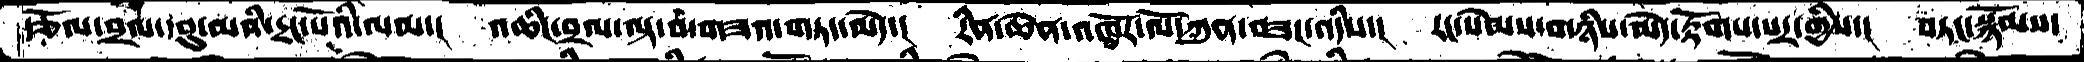རྩོལ་བྲལ་དབུ་མའི་དྲང་པོའི་ལམ་།  འཆིང་བྲལ་ལྟ་བ་གཟའ་གཏད་མེད་།  རིནཆེན་འཁོར་ལོ་ཀུན་བཟང་འདིས་།  རང་སེམས་གཉིས་མེད་རྟོགས་པར་གྱིས་།  བཏང་སྙོམས་
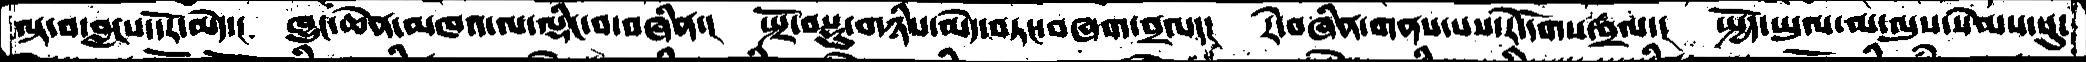ལྟ་བ་བླངས་དོར་མེད་།  ཁྱུང་ཆེན་མཁའ་ལ་ལྡིང་བ་བཞིན་།  སྤྲོ་བསྡུ་གཉིས་མེད་བཏང་བཞག་བྲལ་།  རེ་བཞིན་གནས་པས་རེ་དོགས་བྲལ་།  སྤྱོད་ཡུལ་མ་ལུས་སེམས་སུ་
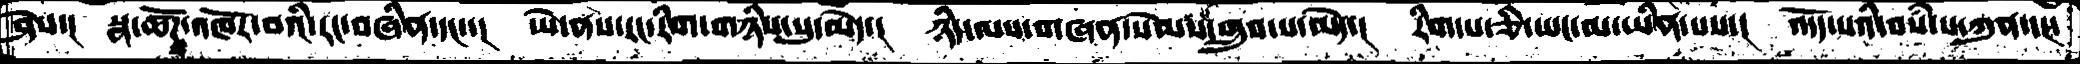ཤེས་།  སྣ་ཚོཌའཁོར་བའི་རང་བཞིན་དང་།   ཡེ་ནས་རང་རིག་གཉིས་སུ་མེད་།  ཉིད་ལས་གཞན་སེམས་གྲུབ་པ་མེད་།  རིག་པ་ཅི་ཡང་མ་ཡིན་པས་།  འདོད་པའི་བསཾ་པ་ཀུན་དང་
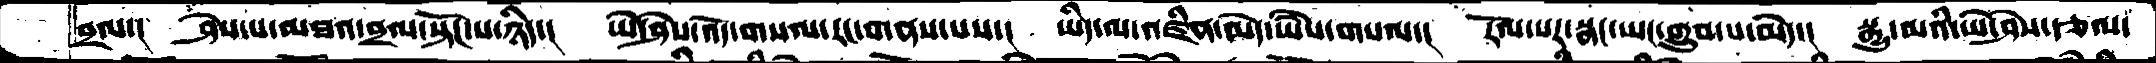བྲལ་།  ཤེས་པ་མཐའ་བྲལ་སྟོང་པ་ཉིད་།  ཡེ་ཤེས་འོད་གསལ་རང་གནས་པས་།  ཡིད་ལ་འཛིན་མེད་ཡཻས་གསལ་།  རོལ་པར་སྣང་ཡང་གྲུབ་པ་མེད་།  སྒྱུ་མའི་ཡེ་ཤེས་རྩལ་
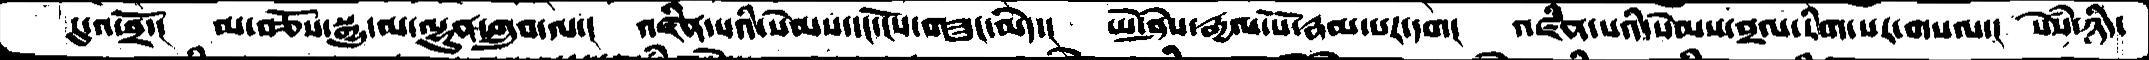དུ་འཕྲོ་།   མ་བཅོས་སྒྱུ་མ་ལྷུན་གྲུབ་ལ་།  འཛིན་པའི་སེམས་དང་ངོས་བཟུང་མེད་།  ཡེ་ཤེས་རྒྱལ་པོ་རྣམ་པར་དག།  འཛིན་པའི་སེམས་བྲལ་རིག་པར་གསལ་།  སེཾས་ཉིད་
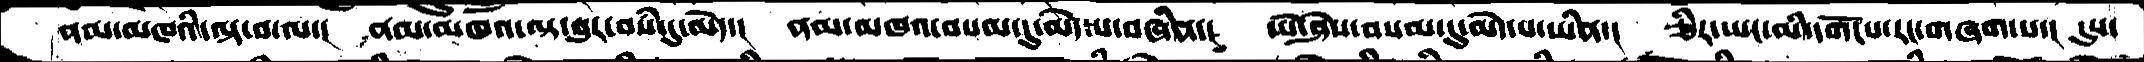ནམ་མཁའི་ལྟ་བ་ལ་།   ནམ་མཁའ་ལྟ་བུར་བསཾ་དུ་མེད་།  ནམ་མཁའ་བསམ་དུ་མེད་པ་བཞིན་།   ཡེ་ཤེས་བསམ་དུ་མེད་པ་ཡིན་།  ཅིར་ཡང་མི་དགོངས་རང་གཞག་པ་།   དུས་
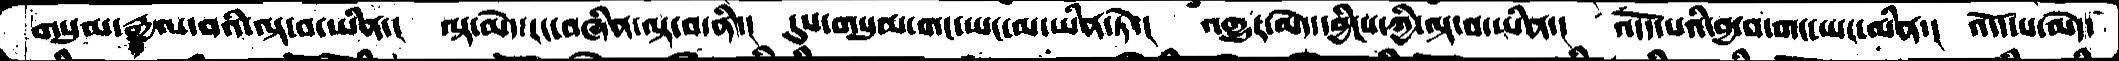གསུམ་རྒྱལ་བའི་ལྟ་བ་ཡིན་།  ལྟ་མེད་རང་བཞིན་ལྟ་བ་ནི་།   དུས་གསུཾ་གང་ཡང་མ་ཡིན་ཏེ་།་  འགྱུར་མེད་དབྱིངས་ཀྱི་ལྟ་བ་ཡིན་།  འདོད་པའི་བྱ་བ་གང་ཡང་མིན་།  འདོད་པ་མེད་
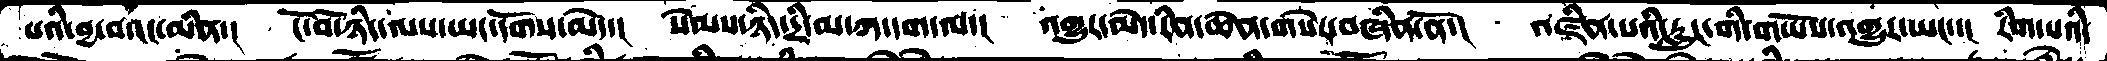པའི་བྱ་བའང་མིན་།  ངོ་བོ་ཉིད་ལས་ཡང་དོགས་མེད་།  སེམས་ཉིད་དྲི་མ་ཀ་དག་ལ་།  འགྱུར་མེད་རིན་ཆེན་གསེར་བཞིན་ནོ་།   འཛིན་པའི་རླུང་གི་གཡོས་འགྱུར་ཡང་།  རིག་པའི་
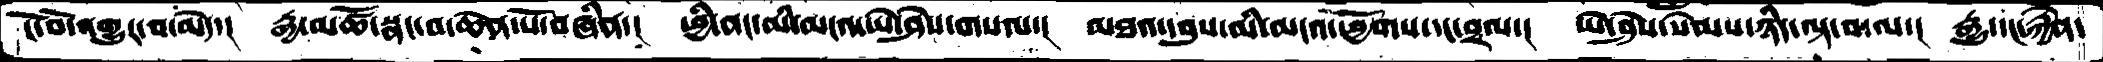ངོ་བོ་འགྱུར་བ་མེད་།   རྒྱ་མཚོ་སྣང་བ་ཆེན་པོ་བཞིན་།  ཕྱི་ནང་མི་མངའ་ཡེ་ཤེས་གསལ་།  མཐའ་དབུས་མི་མངའ་ཕྱོགས་དང་བྲལ་།  ཡེ་ཤེས་སེམས་ཉིད་ལྟ་བ་ལ་།  རྒྱུ་དང་རྐྱེན་
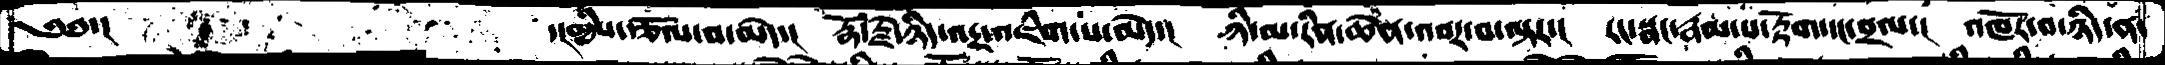༄༅་།             ་།གྱིས་རྩོལ་བ་མེད་།   རྡོ་རྗེ་ཉིད་འདྲ་འཇིག་པ་མེད་།  ཉི་མ་རིན་་ཆེན་འབར་བ་ལྟར་།  རང་སྣང་རྣམ་པ་རྟོག་དང་བྲལ་།  འཁོར་བ་ཉིད་ན་
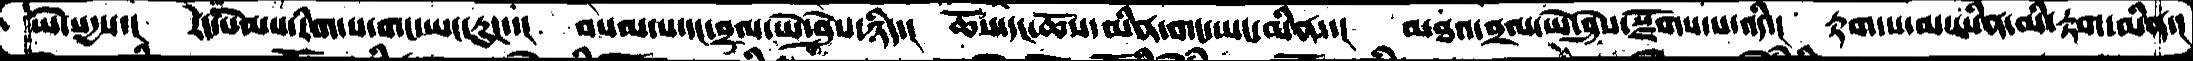ཡེ་སདྱས་།    རེད་སེམས་རིག་པ་གང་ཡང་རུང་།   བསམ་པ་དང་བྲལ་ཡེ་ཤེས་ཉིད་།  ཆོས་དང་ཆོས་མིན་གང་ཡང་མིན་།  མཐའ་བྲལ་ཡེ་ཤེས་སྫོགས་པ་འདི་།  རྟག་པ་མ་ཡིན་མི་རྟག་མིན་།
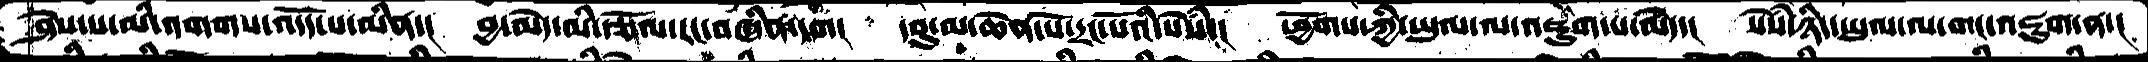ཤེས་པ་མི་འགགས་འདདོ་པ་མིན་།  བྱ་མེད་མི་རྩོལ་རང་བཞིན་དག་།  དབུ་མ་ཆེན་པོ་དྲང་པོའི་སེསཾ་།  ཕྱོགས་ཀྱི་ཡུལ་ལ་འཇུག་པ་མེད་།  སེསཾ་ཉིད་ཡུལ་ལ་གང་འཇུག་ན་།
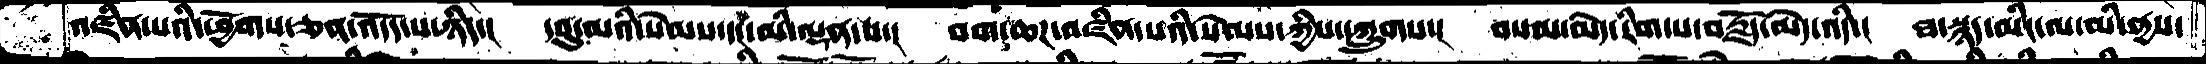འཛིན་པའི་ཕྱོགས་ཅན་འདོད་པ་ཉིད།  དབུ་མའི་སེམས་དང་མི་ལྡན་པ་།  བག་ཆཌ་འཛིན་པའི་སེམས་ཀྱིས་དཀྲུགས་།  བསམ་མེད་རིག་པ་བརྗོད་མེད་འདི་།  ཐ་སྙད་མིང་ལ་མི་ནྱས་
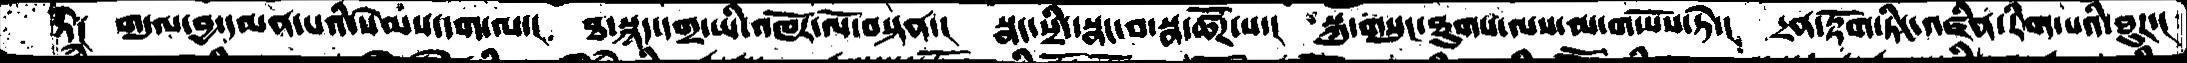ཏེ།  གདུལ་བྱ་དམན་པའི་སེམས་དག་ལ་།  ཐ་སྙད་དགྲ་ཡི་འཁོར་ལོ་བསྟན་།  སྣང་སྲིད་སྣང་བ་སྣ་ཚོཌ་པ་།  སྐུ་གསུང་ཐུགས་ལས་མ་གཡོས་ཏེ་།  དྲན་རྟོག་ཏིང་འཛིན་རིག་པའི་ཐུཌ་།
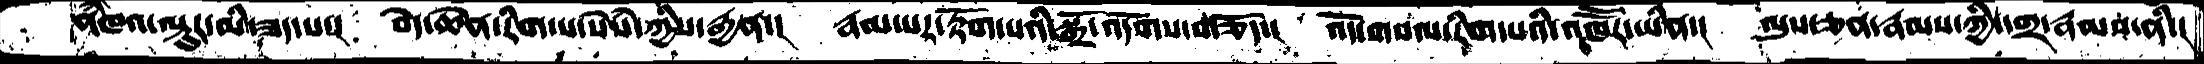ནཾཁའ་ལྟུར་མི་ཟད་པ་།  བདེ་ཆེན་རིག་པ་སེཾས་ཀྱིས་རྒྱན་།  རྣམ་པར་རྟོག་པའི་སྒྲོ་འདོགས་གཅོད་།  འོད་གསལ་རིག་པའི་འཁཽར་ཡིན་།  ལུས་ཅན་རྣམས་ཀྱི་དགྲ་རྣམས་ནི་།
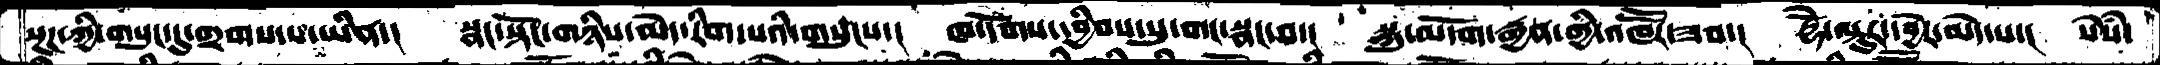སྔཌ་ཀྱི་གསུང་དུ་གྲགས་པ་ཡིན་།  སྣང་སྟོང་གཉིས་མེད་རིག་པའི་གསུངས་།  ཁ་དོགས་དབྱིབས་སུ་གང་སྣང་བ་།  སྐུ་མདོག་རྒྱན་གྱི་འཁཽར་ཟབ་།  རྡེོ་ལྟུར་དབྱེར་མེད་པ་།  སེཾས་
